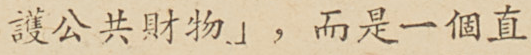護公共財物」，而是一個直
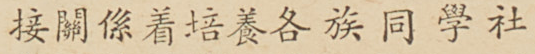接關係着培養各族同學社
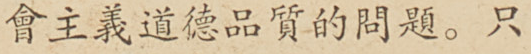會主義道德品質的問題。只
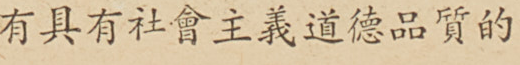由具有社會主義道德品質的
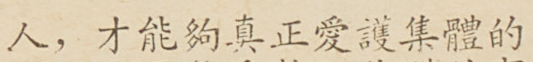人，才能夠真正愛護集體的
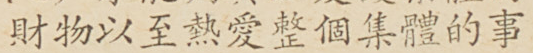財物以至熱愛整個集體的事
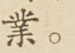業。
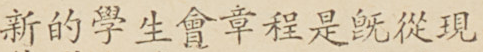新的學生會章程是旣從現
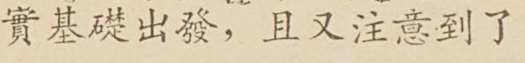實基礎出發，且又注意到了
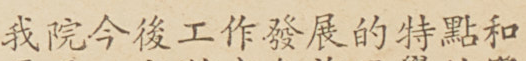我院今後工作發展的特點和
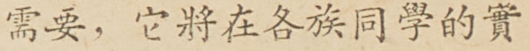需要，它將在各族同學的實
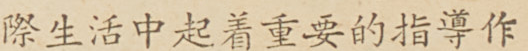際生活中起着重要的指導作
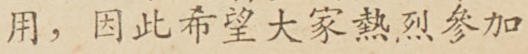用，因此希望大家熱烈參加
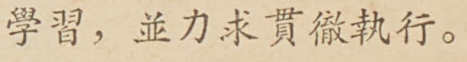學習，並力求貫徹執行。
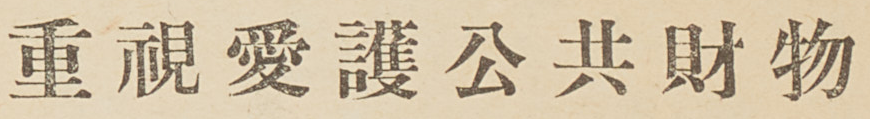重視愛護公共財物
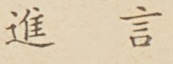進 言
